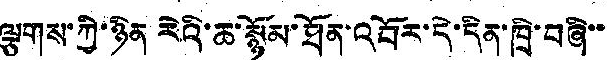ལྕགས་ཀྱི་ཉིན རེའི་ཆ་སྙོམ་ཐོན་འབོར་དེ་དིན་ཁྲི་བཞི་་
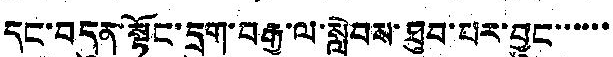དང་བདུན་སྟོང་དྲུག་བརྒྱ་ལ་སླེབས་ཐུབ་པར་བྱུང་་་་་་
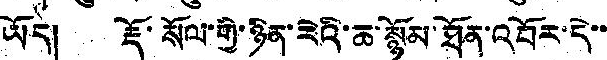ཡོད། རྡོ་སོལ་གྱི་ཉིན་རེའི་ཆ་སྙོམ་ཐོན་འབོར་དེ་་
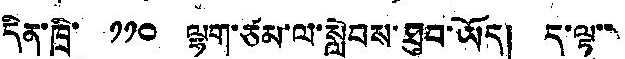དིན་ཁྲི་ ༡༡༠ ལྷག་ཙམ་ལ་སླེབས་ཐུབ་ཡོད། ད་ལྟ་་
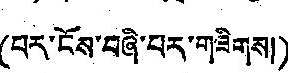(པར་ངོས་བཞི་པར་གཟིགས།)
